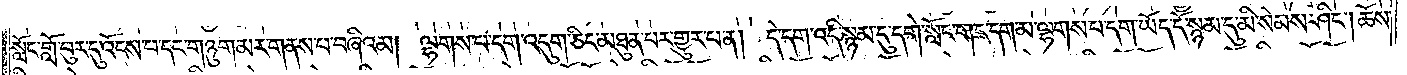སློང་གློ་བུར་དུ་འོངས་པ་དང་གཉུག་མར་གནས་པ་བཞིའམ། ལྷགས་པ་དག་འདུག་ཅིང་མཐུན་པར་གྱུར་པ་ན། དེ་དག་འདི་སྙམ་དུ་དགེ་སློང་གང་དག་མ་ལྷགས་པ་དག་ཡོད་དོ་སྙམ་དུ་མི་སེམས་ཤིང༌། ཆོས་
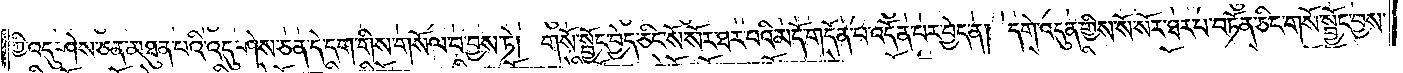ཀྱི་འདུ་ཤེས་ཅན་མཐུན་པའི་འདུ་ཤེས་ཅན་དེ་དག་གིས་གསོལ་བ་བྱས་ཏེ། གསོ་སྦྱོང་བྱེད་ཅིང་སོ་སོར་ཐར་པའི་མདོ་གདོན་པ་འདོན་པར་བྱེད་ན། དགེ་འདུན་གྱིས་སོ་སོར་ཐར་པ་བཏོན་ཅིང་གསོ་སྦྱོང་བྱས་
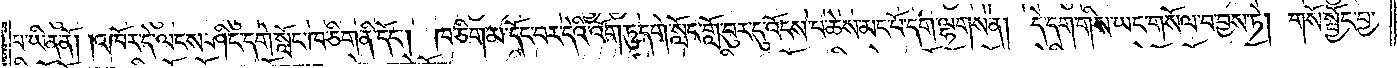པ་ཡིན་ནོ། །འཁོར་དེ་ལངས་ཤིང་དགེ་སློང་ཁ་ཅིག་ནི་དོང༌། ཁ་ཅིག་མ་དོང་བར་དེའི་འོག་ཏུ་དགེ་སློང་གློ་བུར་དུ་འོངས་པ་ཆེས་མང་པོ་དག་ལྷགས་ན། དེ་དག་གིས་ཡང་གསོལ་བ་བྱས་ཏེ། གསོ་སྦྱོང་བྱ་
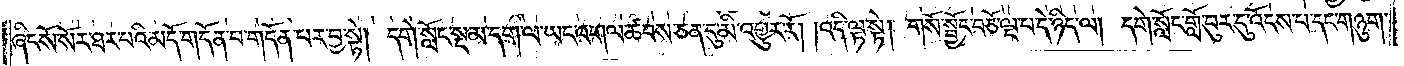ཞིང་སོ་སོར་ཐར་པའི་མདོ་གདོན་པ་གདོན་པར་བྱ་སྟེ། དགེ་སློང་སྔ་མ་དག་ལ་ཡང་འགལ་ཚབས་ཅན་དུ་མི་འགྱུར་རོ། །འདི་ལྟ་སྟེ། གསོ་སྦྱོང་བཅོ་ལྔ་པ་དེ་ཉིད་ལ། དགེ་སློང་གློ་བུར་དུ་འོངས་པ་དང་གཉུག་
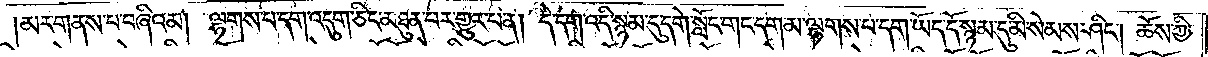མར་གནས་པ་བཞིའམ། ལྷགས་པ་དག་འདུག་ཅིང་མཐུན་པར་གྱུར་པ་ན། དེ་དག་འདི་སྙམ་དུ་དགེ་སློང་གང་དག་མ་ལྷགས་པ་དག་ཡོད་དོ་སྙམ་དུ་མི་སེམས་ཤིང༌། ཆོས་ཀྱི་
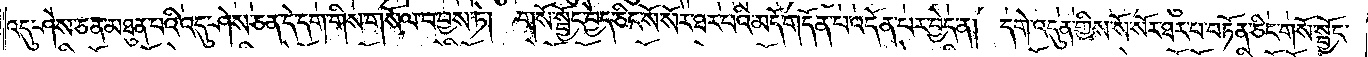འདུ་ཤེས་ཅན་མཐུན་པའི་འདུ་ཤེས་ཅན་དེ་དག་གིས་གསོལ་བ་བྱས་ཏེ། གསོ་སྦྱོང་བྱེད་ཅིང་སོ་སོར་ཐར་པའི་མདོ་གདོན་པ་འདོན་པར་བྱེད་ན། དགེ་འདུན་གྱིས་སོ་སོར་ཐར་པ་བཏོན་ཅིང་གསོ་སྦྱོང་
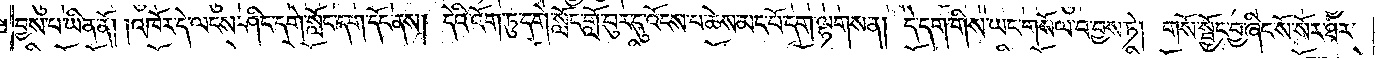བྱས་པ་ཡིན་ནོ། །འཁོར་དེ་ལངས་ཤིང་དགེ་སློང་དག་དོང་ནས། དེའི་འོག་ཏུ་དགེ་སློང་གློ་བུར་དུ་འོངས་པ་ཆེས་མང་པོ་དག་ལྷགས་ན། དེ་དག་གིས་ཡང་གསོལ་བ་བྱས་ཏེ། གསོ་སྦྱོང་བྱ་ཞིང་སོ་སོར་ཐར་
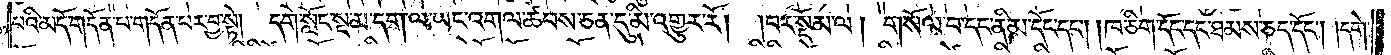པའི་མདོ་གདོན་པ་གདོན་པར་བྱ་སྟེ། དགེ་སློང་སྔ་མ་དག་ལ་ཡང་འགལ་ཚབས་ཅན་དུ་མི་འགྱུར་རོ། །བར་སྡོམ་ལ། གསོལ་བ་དང་ནི་མ་དོང་དང༌། །ཁ་ཅིག་དོང་དང་ཐམས་ཅད་དོང༌། །དགེ་
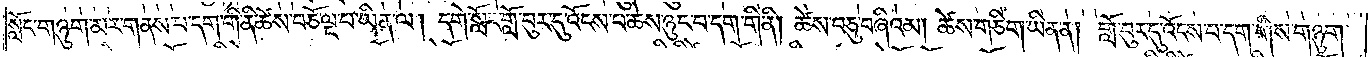སློང་གཉུག་མར་གནས་པ་དག་གི་ནི་ཚེས་བཅོ་ལྔ་པ་ཡིན་ལ། དགེ་སློང་གློ་བུར་དུ་འོངས་པ་ཆེས་ཉུང་བ་དག་གི་། ཚེས་བཅུ་བཞིའམ། ཚེས་གཅིག་ཡིན་ན། གློ་བུར་དུ་འོངས་པ་དག་གིས་གཉུག་
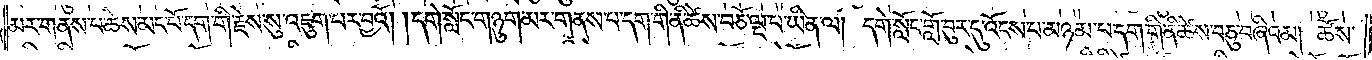མར་གནས་པ་ཆེས་མང་པོ་དག་གི་རྗེས་སུ་འཇུག་པར་བྱའོ། །དགེ་སློང་གཉུག་མར་གནས་པ་དག་གི་ནི་ཚེས་བཅོ་ལྔ་པ་ཡིན་ལ། དགེ་སློང་གློ་བུར་དུ་འོངས་པ་མཉམ་པ་དག་གི་ནི་ཚེས་བཅུ་བཞིའམ། ཚོས་
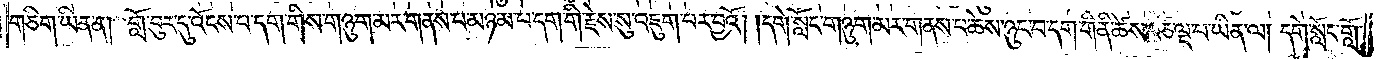གཅིག་ཡིན་ན། གློ་བུར་དུ་འོངས་པ་དག་གིས་གཉུག་མར་གནས་པ་མཉམ་པ་དག་གི་རྗེས་སུ་འཇུག་པར་བྱའོ། །དགེ་སློང་གཉུག་མར་གནས་པ་ཆེས་ཉུང་བ་དག་གི་ནི་ཚེས་བཅོ་ལྔ་པ་ཡིན་ལ། དགེ་སློང་གློ་
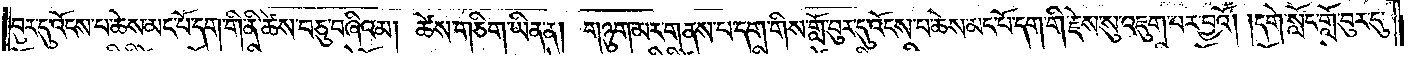བུར་དུ་འོངས་པ་ཆེས་མང་པོ་དག་གི་ནི་ཚེས་བཅུ་བཞིའམ། ཚེས་གཅིག་ཡིན་ན། གཉུག་མར་གནས་པ་དག་གིས་གློ་བུར་དུ་འོངས་པ་ཆེས་མང་པོ་དག་གི་རྗེས་སུ་འཇུག་པར་བྱའོ། །དགེ་སློང་གློ་བུར་དུ་
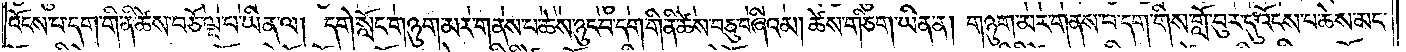འོངས་པ་དག་གི་ནི་ཚེས་བཅོ་ལྔ་པ་ཡིན་ལ། དགེ་སློང་གཉུག་མར་གནས་པ་ཆེས་ཉུང་བ་དག་གི་ནི་ཚེས་བཅུ་བཞིའམ། ཚེས་གཅིག་ཡིན་ན། གཉུག་མར་གནས་པ་དག་གིས་གློ་བུར་དུ་འོངས་པ་ཆེས་མང་
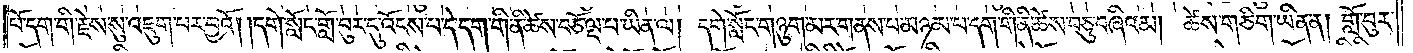པོ་དག་གི་རྗེས་སུ་འཇུག་པར་བྱའོ། །དགེ་སློང་གློ་བུར་དུ་འོངས་པ་དེ་དག་གི་ནི་ཚེས་བཅོ་ལྔ་པ་ཡིན་ལ། དགེ་སློང་གཉུག་མར་གནས་པ་མཉམ་པ་དག་གི་ནི་ཚེས་བཅུ་བཞིའམ། ཚེས་གཅིག་ཡིན་ན། གློ་བུར་
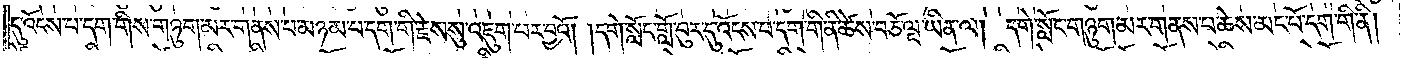དུ་འོངས་པ་དག་གིས་གཉུག་མར་གནས་པ་མཉམ་པ་དག་གི་རྗེས་སུ་འཇུག་པར་བྱའོ། །དགེ་སློང་གློ་བུར་དུ་འོངས་པ་དག་གི་ནི་ཚེས་བཅོ་ལྔ་ཡིན་ལ། དགེ་སློང་གཉུག་མར་གནས་པ་ཆེས་མང་པོ་དག་གི་ནི།
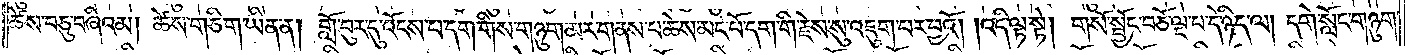ཚེས་བཅུ་བཞིའམ། ཚེས་གཅིག་ཡིན་ན། གློ་བུར་དུ་འོངས་པ་དག་གིས་གཉུག་མར་གནས་པ་ཆེས་མང་པོ་དག་གི་རྗེས་སུ་འཇུག་པར་བྱའོ། །འདི་ལྟ་སྟེ། གསོ་སྦྱོང་བཅོ་ལྔ་པ་དེ་ཉིད་ལ། དགེ་སློང་གཉུག་
